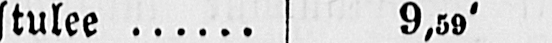tulee 9,59’
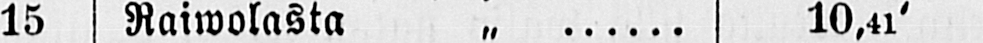15 Raiwolasta „ 10,41’
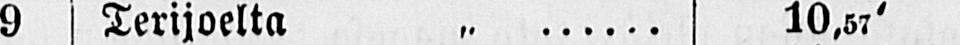9 Terijoelta „ 10,57’
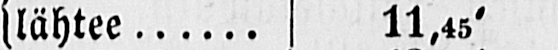lähtee 11,45’
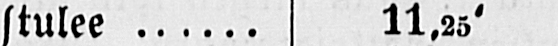tulee 11,25’
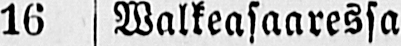16 Walkeasaaressa
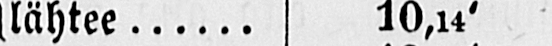lähtee 10,14’
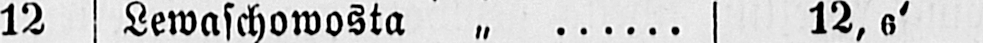12 Lewaschowosta „ 12,6’
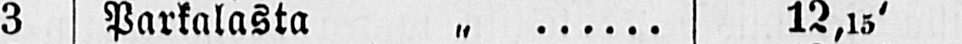3 Parkalasta „ 12,15’
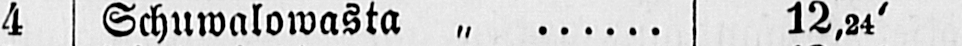4 Schuwalowasta „ 12,24’
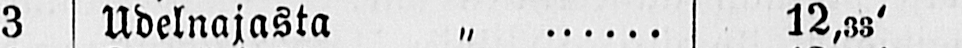3 Udelnajasta „ 12,33’
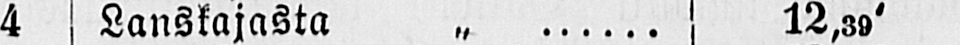4 Lanskajasta „ 12,39’
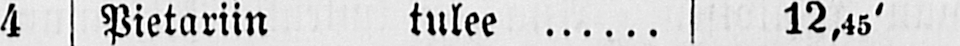4 Pietariin tulee 12,45’
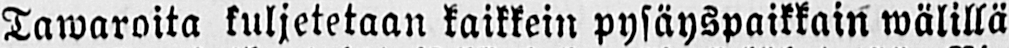Tawaroita kuljetetaan kaikkein pysäyspaikkain wälillä,
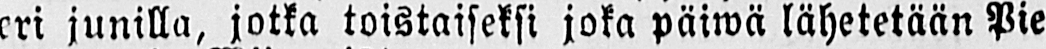eri junilla, jotka toistaiseksi joka päiwä lähetetään Pie-
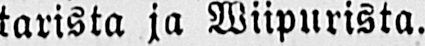tarista ja Wiipurista.
